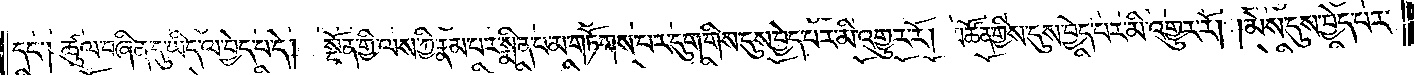དང༌། ཚུལ་བཞིན་དུ་ཡིད་ལ་བྱེད་པ་དེ། སྔོན་གྱི་ལས་ཀྱི་རྣམ་པར་སྨིན་པ་མ་གཏོགས་པར་དུག་གིས་དུས་བྱེད་པར་མི་འགྱུར་རོ། །མཚོན་གྱིས་དུས་བྱེད་པར་མི་འགྱུར་རོ། །མེས་དུས་བྱེད་པར་
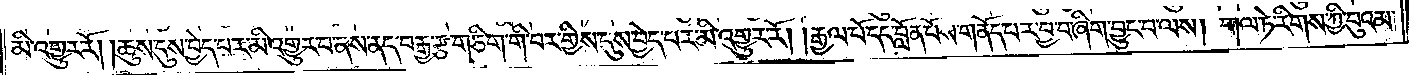མི་འགྱུར་རོ། །ཆུས་དུས་བྱེད་པར་མི་འགྱུར་བ་ནས་ནད་བརྒྱ་རྩ་གཅིག་གི་བར་གྱིས་དུས་བྱེད་པར་མི་འགྱུར་རོ། །རྒྱལ་པོ་དང་བློན་པོས་གནོད་པར་བྱ་བ་ཞིག་བྱུང་བ་ལས། གལ་ཏེ་རིགས་ཀྱི་བུའམ་
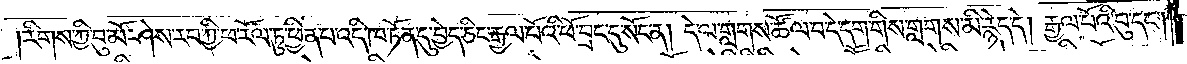རིགས་ཀྱི་བུ་མོ་ཤེས་རབ་ཀྱི་ཕ་རོལ་ཏུ་ཕྱིན་པ་འདི་ཁ་ཏོན་དུ་བྱེད་ཅིང་རྒྱལ་པོའི་ཕོ་བྲང་དུ་སོང་ན། དེ་ལ་གླགས་འཚོལ་བ་དེ་དག་གིས་གླགས་མི་རྙེད་དེ། རྒྱལ་པོའི་བུ་དང༌།
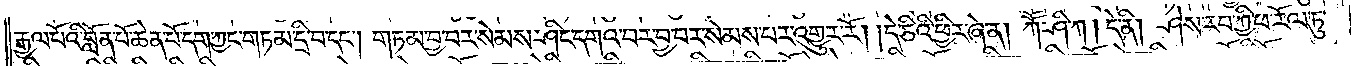རྒྱལ་པོའི་བློན་པོ་ཆེན་པོ་དག་ཀྱང་གཏམ་དྲི་བ་དང༌། གཏམ་བྱ་བར་སེམས་ཤིང་དགའ་བར་བྱ་བར་སེམས་པར་འགྱུར་རོ། །དེ་ཅིའི་ཕྱིར་ཞེ་ན། ཀཽ་ཤི་ཀ། དེ་ནི། ཤེས་རབ་ཀྱི་ཕ་རོལ་ཏུ་
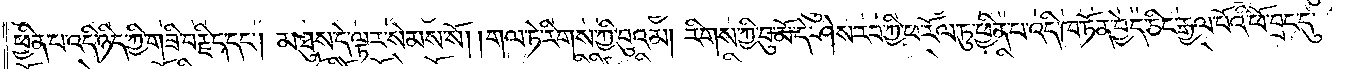ཕྱིན་པ་འདི་ཉིད་ཀྱི་གཟི་བརྗིད་དང༌། མཐུས་དེ་ལྟར་སེམས་སོ། ། གལ་ཏེ་རིགས་ཀྱི་བུའམ། རིགས་ཀྱི་བུ་མོ་དེ་ཤེས་རབ་ཀྱི་ཕ་རོལ་ཏུ་ཕྱིན་པ་འདི་ཁ་ཏོན་བྱེད་ཅིང་རྒྱལ་པོའི་ཕོ་བྲང་དུ་
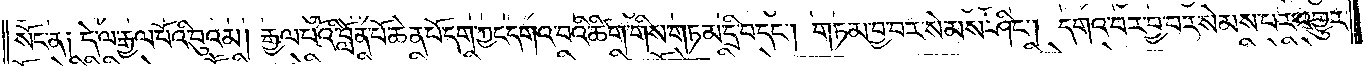སོང་ན། དེ་ལ་རྒྱལ་པོའི་བུའམ། རྒྱལ་པོའི་བློན་པོ་ཆེན་པོ་དག་ཀྱང་དགའ་བའི་ཚིག་གིས་གཏམ་དྲི་བ་དང༌། གཏམ་བྱ་བར་སེམས་ཤིང༌། དགའ་བར་བྱ་བར་སེམས་པར་འགྱུར་
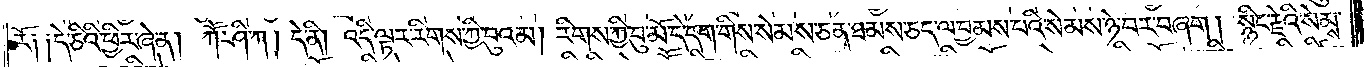རོ༑ ༑དེ་ཅིའི་ཕྱིར་ཞེ་ན། ཀཽ་ཤི་ཀ། དེ་ནི། འདི་ལྟར་རིགས་ཀྱི་བུའམ། རིགས་ཀྱི་བུ་མོ་དེ་དག་གིས་སེམས་ཅན་ཐམས་ཅད་ལ་བྱམས་པའི་སེམས་ཉེ་བར་བཞག །སྙིང་རྗེའི་སེམས་
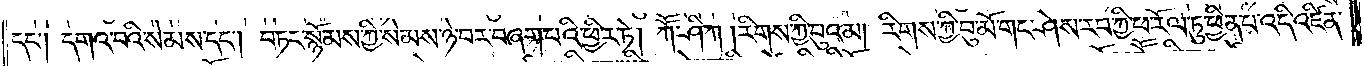དང༌། དགའ་བའི་སེམས་དང༌། བཏང་སྙོམས་ཀྱི་སེམས་ཉེ་བར་བཞག་པའི་ཕྱིར་ཏེ། ཀཽ་ཤི་ཀ །རིགས་ཀྱི་བུའམ། རིགས་ཀྱི་བུ་མོ་གང་ཤེས་རབ་ཀྱི་ཕ་རོལ་ཏུ་ཕྱིན་པ་འདི་འཛིན་
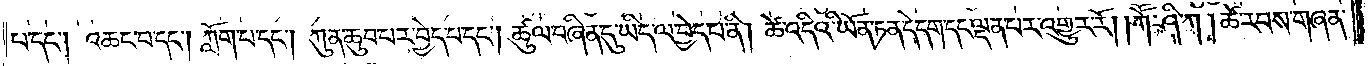པ་དང༌། འཆང་བ་དང༌། ཀློག་པ་དང༌། ཀུན་ཆུབ་པར་བྱེད་པ་དང༌། ཚུལ་བཞིན་དུ་ཡིད་ལ་བྱེད་པ་ནི། ཚེ་འདིའི་ཡོན་ཏན་དེ་དག་དང་ལྡན་པར་འགྱུར་རོ། །ཀཽ་ཤི་ཀ །ཚེ་རབས་གཞན་
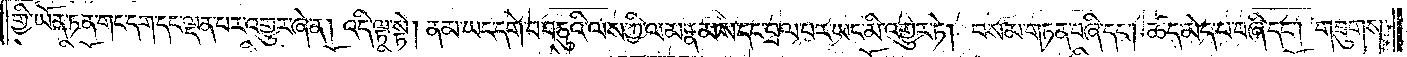གྱི་ཡོན་ཏན་གང་དག་དང་ལྡན་པར་འགྱུར་ཞེ་ན། འདི་ལྟ་སྟེ། ནམ་ཡང་དགེ་བ་བཅུའི་ལས་ཀྱི་ལམ་རྣམས་དང་བྲལ་བར་ཡང་མི་འགྱུར་ཏེ། བསམ་གཏན་བཞི་དང༌། ཚད་མེད་པ་བཞི་དང༌། གཟུགས་
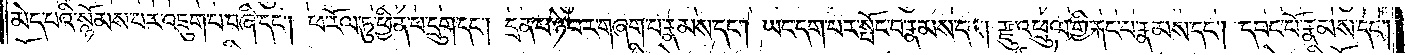མེད་པའི་སྙོམས་པར་འཇུག་པ་བཞི་དང༌། ཕ་རོལ་ཏུ་ཕྱིན་པ་དྲུག་དང༌། དྲན་པ་ཉེ་བར་གཞག་པ་རྣམས་དང༌། ཡང་དག་པར་སྤོང་བ་རྣམས་དང༌། རྫུ་འཕྲུལ་གྱི་རྐང་པ་རྣམས་དང༌། དབང་པོ་རྣམས་དང༌།
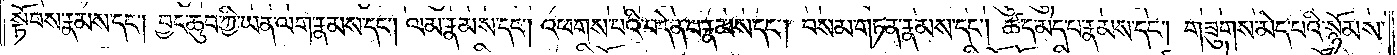སྟོབས་རྣམས་དང༌། བྱང་ཆུབ་ཀྱི་ཡན་ལག་རྣམས་དང༌། ལམ་རྣམས་དང༌། འཕགས་པའི་བདེན་པ་རྣམས་དང༌། བསམ་གཏན་རྣམས་དང༌། ཚད་མེད་པ་རྣམས་དང༌། གཟུགས་མེད་པའི་སྙོམས་
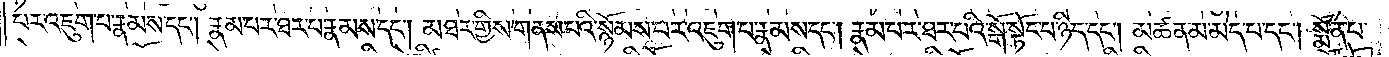པར་འཇུག་པ་རྣམས་དང༌། རྣམ་པར་ཐར་པ་རྣམས་དང༌། མཐར་གྱིས་གནས་པའི་སྙོམས་པར་འཇུག་པ་རྣམས་དང༌། རྣམ་པར་ཐར་པའི་སྒོ་སྟོང་པ་ཉིད་དང༌། མཚན་མ་མེད་པ་དང༌། སྨོན་པ་
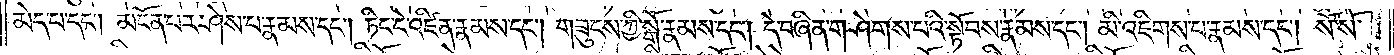མེད་པ་དང༌། མངོན་པར་ཤེས་པ་རྣམས་དང༌། ཏིང་ངེ་འཛིན་རྣམས་དང༌། གཟུངས་ཀྱི་སྒོ་རྣམས་དང༌། དེ་བཞིན་གཤེགས་པའི་སྟོབས་རྣམས་དང༌། མི་འཇིགས་པ་རྣམས་དང༌། སོ་སོ་
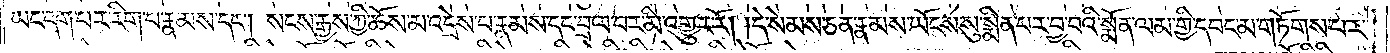ཡང་དག་པར་རིག་པ་རྣམས་དང༌། སངས་རྒྱས་ཀྱི་ཆོས་མ་འདྲེས་པ་རྣམས་དང་བྲལ་བར་མི་འགྱུར་རོ། །དེ་སེམས་ཅན་རྣམས་ཡོངས་སུ་སྨིན་པར་བྱ་བའི་སྨོན་ལམ་གྱི་དབང་མ་གཏོགས་པར་
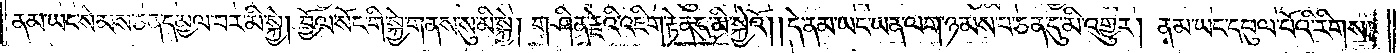ནམ་ཡང་སེམས་ཅན་དམྱལ་བར་མི་སྐྱེ། བྱོལ་སོང་གི་སྐྱེ་གནས་སུ་མི་སྐྱེ། གཤིན་རྗེའི་འཇིག་རྟེན་དུ་མི་སྐྱེའོ། །དེ་ནམ་ཡང་ཡན་ལག་ཉམས་པ་ཅན་དུ་མི་འགྱུར། ནམ་ཡང་དབུལ་པོའི་རིགས་
